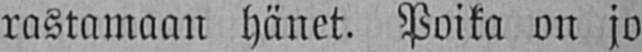rastamaan hänet. Poika on jo
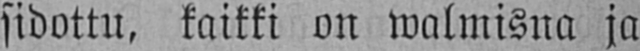sidottu, kaikki on walmisna ja
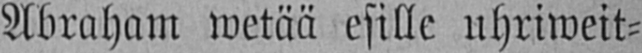Abraham wetää esille uhriweit-
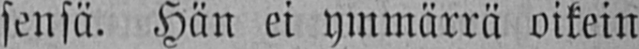sensä. Hän ei ymmärrä oikein
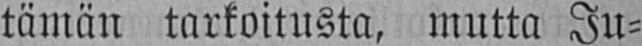tämän tarkoitusta, mutta Ju-
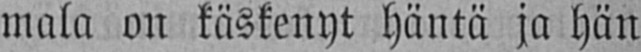mala on käskenyt häntä ja hän
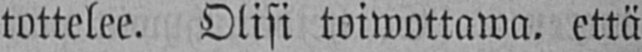tottelee. Olisi toiwottawa. että
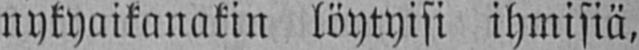nykyaikanakin löytyisi ihmisiä,
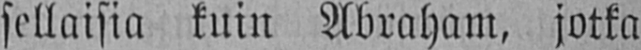sellaisia kuin Abraham, jotka
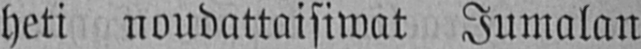heti noudattaisiwat Jumalan
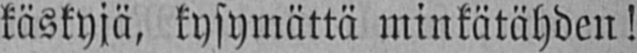käskyjä, kysymättä minkätähden!
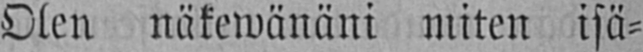Olen näkewänäni miten isä-
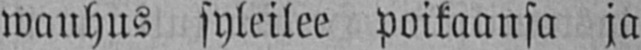wauhus syleilee poikaansa ja
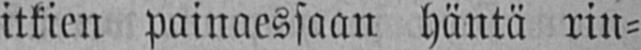itkien painaessaan häntä rin-
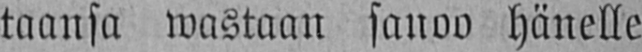taansa wastaan sanoo hänelle
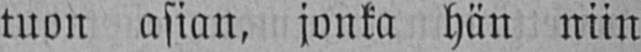tuon asian, jonka hän niin
